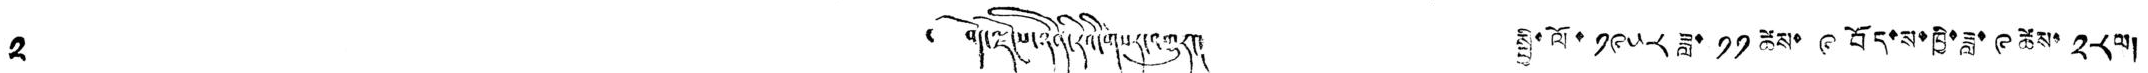༢ ༄ བོད་ལྗོངས་ཉིན་རེའི་གསར་འགྱུར། སྤྱི་ལོ་ ༡༩༥༨ ཟླ་ ༡༡ ཚེས་ ༩ བོད་ས་ཁྱི་ཟླ་ ༩ ཚེས་ ༢༨ ལ།
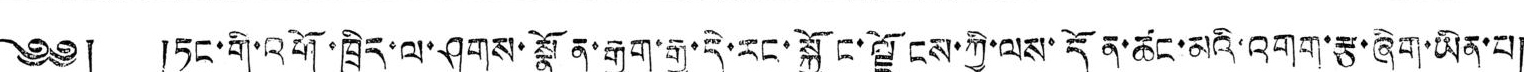༄༅། །ཏང་གི་འགོ་ཁྲིད་ལ་ཤུགས་སྣོན་རྒྱག་རྒྱུ་དེ་རང་སྐྱོང་ལྗོངས་ཀྱི་ལས་དོན་ཚང་མའི་འགག་རྩ་ཞིག་ཡིན་པ།
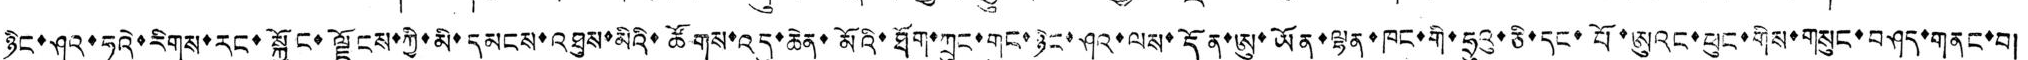ཉིང་ཤའ་ཧུའེ་རིགས་རང་སྐྱོང་ལྗོངས་ཀྱི་མི་དམངས་འཐུས་མིའི་ཚོགས་འདུ་ཆེན་མོའི་ཐོག་ཀྲུང་གུང་ཉིང་ཤའ་ལས་དོན་ཨུ་ཡོན་ལྷན་ཁང་གི་ཧྲུའུ་ཅི་དང་པོ་ཨུའང་ཕུང་གིས་གསུང་བཤད་གནང་བ།
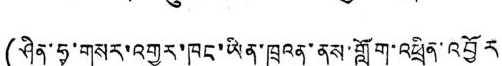(ཤིན་ཧྭ་གསར་འགྱུར་ཁང་ཡིན་ཁྲུའན་ནས་གློག་འཕྲིན་འབྱོར
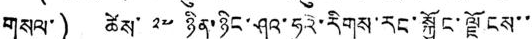གསལ་) ཚེས་ ༢༧ ཉིན་ཉིང་ཤའི་ཧུའེ་རིགས་རང་སྐྱོང་ལྗོངས་་
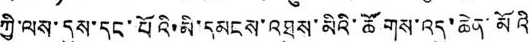ཀྱི་ལས་དུས་དང་པོའི་མི་དམངས་འཐུས་མིའི་ཚོགས་འདུ་ཆེན་མོའི
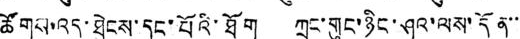ཚོགས་འདུ་ཐེངས་དང་པོའི་ཐོག ཀྲུང་གུང་ཉིང་ཤའ་ལས་དོན་་་
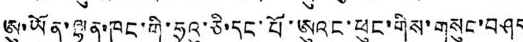ཨུ་ཡོན་ལྷན་ཁང་གི་ཧྲུའུ་ཅི་དང་པོ་ཨུའང་ཕུང་གིས་གསུང་བཤད་
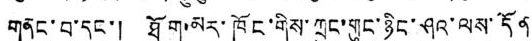གནང་བ་དང་། ཐོག་མར་ཁོང་གིས་ཀྲུང་གུང་ཉིང་ཤའ་ལས་དོན་
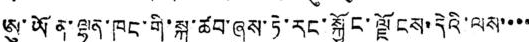ཨུ་ཡོན་ལྷན་ཁང་གི་སྐུ་ཚབ་ཞུས་ཏེ་རང་སྐྱོང་ལྗོངས་དེའི་ལས་་་་
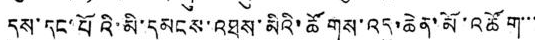དུས་དང་པོའི་མི་དམངས་འཐུས་མིའི་ཚོགས་འདུ་ཆེན་མོ་འཚོག་་་
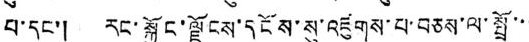པ་དང་། རང་སྐྱོང་ལྗོངས་དངོས་སུ་འཛུགས་པ་བཅས་ལ་སྤྲོ་་་
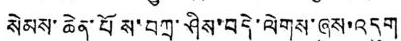སེམས་ཆེན་པོས་བཀྲ་ཤིས་བདེ་ལེགས་ཞུས་འདུག
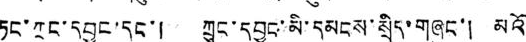ཏང་ཀྲུང་དབྱང་དང་། ཀྲུང་དབྱང་མི་དམངས་སྲིད་གཞུང་། མའོ
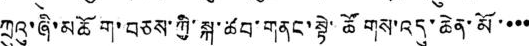ཀྲུའུ་ཞི་མཆོག་བཅས་ཀྱི་སྐུ་ཚབ་གནང་སྟེ་ཚོགས་འདུ་ཆེན་མོ་་་་
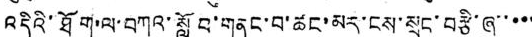འདིའི་ཐོག་ལ་བཀའ་སློབ་གནང་བ་ཚང་མར་ངས་སྲུང་བརྩི་ཞུ་་་་་
